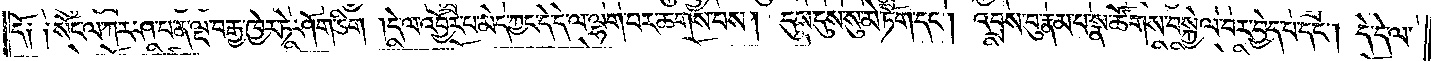དོ༑ ༑སོང་ལ་ཀར་ཤ་པ་ན་ལྔ་བརྒྱ་ཁྱེར་ཏེ་ཤོག་ཅིག །དེ་ལ་འབྱོར་པ་མེད་ཀྱང་དེ་དེ་ལ་ལྷག་པར་ཆགས་པས། དུས་དུས་སུ་མེ་ཏོག་དང༌། འབྲས་བུ་རྣམ་པ་སྣ་ཚོགས་བསྐྱེལ་བར་བྱེད་པ་དང༌། དེ་དེ་ལ་
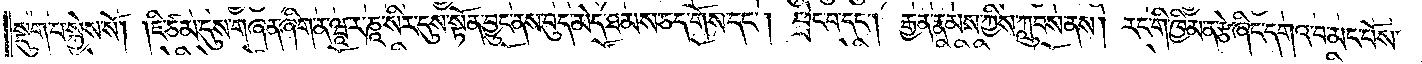སྡུག་པ་སྐྱེས་སོ། །ཇི་ཙམ་དུས་གཞན་ཞིག་ན་ཝཱ་ར་ཎ་སིར་དུས་སྟོན་བྱུང་ནས་བུད་མེད་ཐམས་ཅད་གོས་དང༌། ཕྲེང་བ་དང༌། རྒྱན་རྣམས་ཀྱིས་ཀླུབས་ནས། རང་གི་ཁྱིམ་ན་རྩེ་ཞིང་དགའ་བ་མང་པོས་
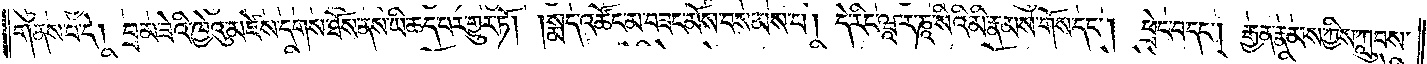གནས་པ་དེ། བྲམ་ཟེའི་ཁྱེའུ་མཛེས་དགས་ཐོས་ནས་ཡི་ཆད་པར་གྱུར་ཏོ། །སྨད་འཚོང་མ་བཟང་མོས་བསམས་པ། དེ་རིང་ཝཱ་ར་ཎཱ་སིའི་མི་རྣམས་གོས་དང༌། ཕྲེང་བ་དང༌། རྒྱན་རྣམས་ཀྱིས་ཀླུབས་
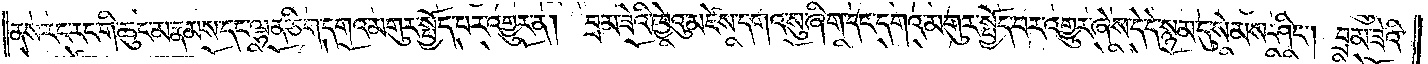ནས་རང་རང་གི་ཆུང་མ་རྣམས་དང་ལྷན་ཅིག་དགའ་མགུར་སྤྱོད་པར་འགྱུར་ན། བྲམ་ཟེའི་ཁྱེའུ་མཛེས་དགའ་སུ་ཞིག་དང་དགའ་མགུར་སྤྱོད་པར་འགྱུར་ཞེས་དེ་དེ་སྙམ་དུ་སེམས་ཤིང༌། བྲམ་ཟེའི་
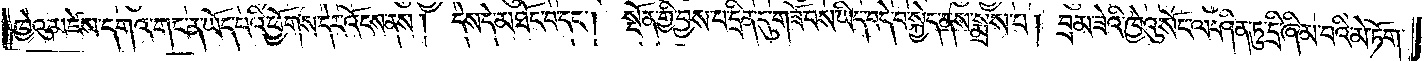ཁྱེའུ་མཛེས་དགའ་གང་ན་ཡོད་པའི་ཕྱོགས་དེར་འོངས་ནས། དེས་དེ་མཐོང་བ་དང༌། སྔོན་གྱི་བྱས་པ་དྲིན་དུ་གཟོ་བས་ཡིད་བདེ་བ་སྐྱེད་ནས་སྨྲས་པ། བྲམ་ཟེའི་ཁྱེའུ་སོང་ལ་ཤིན་ཏུ་དྲི་ཞིམ་པའི་མེ་ཏོག་
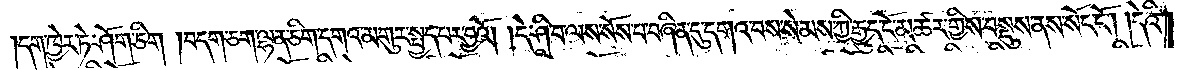དག་ཁྱེར་ཏེ་ཤོག་ཅིག །བདག་ཅག་ལྷན་ཅིག་དགའ་མགུར་སྤྱད་པར་བྱའོ། །དེ་ཤི་བ་ལས་སོས་པ་བཞིན་དུ་དགའ་བས་སེམས་ཀྱི་རྒྱུད་ངོ་མཚར་གྱིས་བསྡུས་ནས་སོང་ངོ༌། །དེའི་
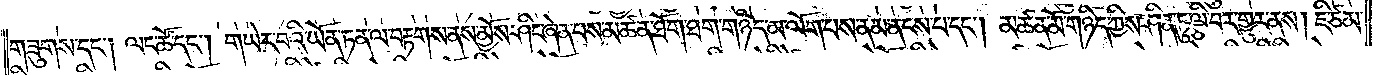གཟུགས་དང༌། ལང་ཚོ་དང༌། གཡེར་བའི་ཡོན་ཏན་ལ་བརྟགས་ནས་མྱོས་ཤིང་ཞེན་པས་མཚན་ཐོག་ཐག་གཉིད་མ་ལོག་པས་ནམ་ནངས་པ་དང༌། མཚན་མོ་གཉིད་ཀྱིས་ཤིན་ཏུ་ལྕི་བར་གྱུར་ནས། ཇི་ཙམ་
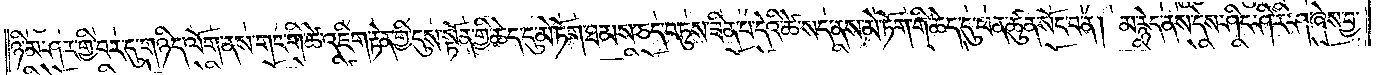ཉི་མ་ཤར་གྱི་བར་དུ་གཉིད་ལོག་ནས་གང་གི་ཚེ་འཇིག་རྟེན་གྱི་དུས་སྟོན་གྱི་ཆེད་དུ་མེ་ཏོག་ཐམས་ཅད་བཏུས་ཟིན་པ་དེའི་ཚེ་སད་ནས་མེ་ཏོག་གི་ཆེད་དུ་ཕན་ཚུན་སོང་བ་ན། མ་རྙེད་ནས་དེས་ཤིང་ཤི་རི་ཤ་ཞེས་བྱ་
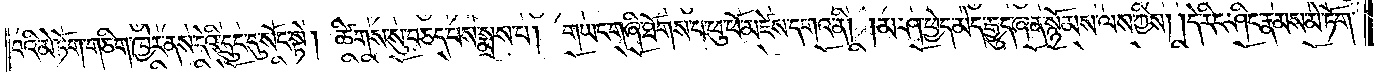བའི་མེ་ཏོག་གཅིག་ཁྱེར་ནས་དེའི་དྲུང་དུ་སོང་སྟེ། ཚིགས་སུ་བཅད་པས་སྨྲས་པ། གཡང་གཞི་ཐོགས་པ་ཕུ་ཕོ་མཛེས་དགའ་ནི། །མ་ཤ་ཕྱེད་མེད་རྒྱུད་ཞན་སྙོམས་ལས་ཀྱིས། །དེ་རིང་ཤིང་རྣམས་མེ་ཏོག་
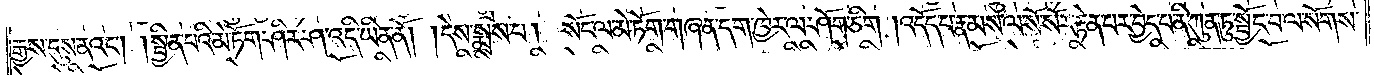རྒྱས་དུས་ནའང༌། །སྦྱིན་པའི་མེ་ཏོག་ཤིར་ཤ་འདི་ཡིན་ནོ། །དེས་སྨྲས་པ། སོང་ལ་མེ་ཏོག་གཞན་དག་ཁྱེར་ལ་ཤོག་ཅིག །འདོད་པ་རྣམས་ལ་སོ་སོར་རྟེན་པར་བྱེད་པ་ནི་ཀུན་ཏུ་སྦྱོང་བ་ལ་སོགས་
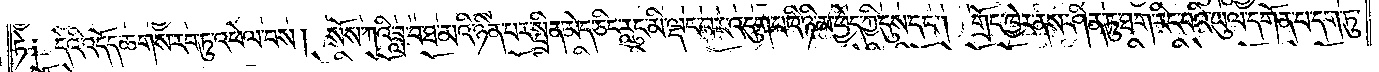ཏེ༑ དེའི་འདོད་ཆགས་རབ་ཏུ་འཕེལ་བས། སོས་ཀའི་ཟླ་བ་ཐ་མའི་ཉིན་པར་སྤྲིན་མེད་ཅིང་རླུང་མི་ལྡང་བར་འདུག་པའི་ཉི་མ་ཕྱེད་ཀྱི་དུས་དང༌། གྲོང་ཁྱེར་ནས་ཤིན་ཏུ་ཐག་རིང་བའི་ཡུལ་དགོན་པ་དག་ཏུ་
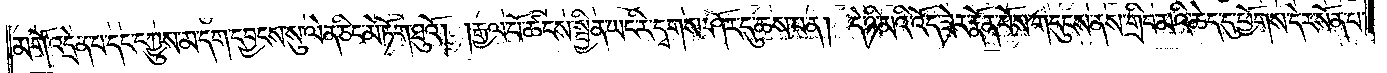མགོ་འདྲེན་པ་དང་དཀྱུས་མ་དག་དབྱངས་སུ་ལེན་ཅིང་མེ་ཏོག་ཐུའོ། །རྒྱལ་པོ་ཚངས་སྦྱིན་ཡང་རི་དྭགས་ཤོར་དུ་ཆས་པ་ན། དེ་ཉི་མའི་འོད་ཟེར་རྣོན་པོས་གདུངས་ནས་གྲིབ་མའི་ཆེད་དུ་ཕྱོགས་དེར་སོན་པ་
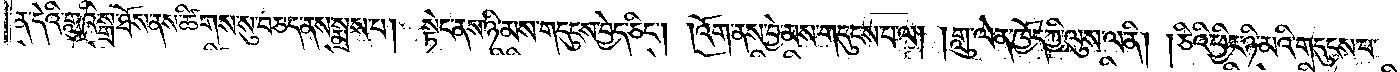ན་དེའི་གླུའི་སྒྲ་ཐོས་ནས་ཚིགས་སུ་བཅད་ནས་སྨྲས་པ། སྟེང་ནས་ཉི་མས་གདུངས་བྱེད་ཅིང༌། །འོག་ནས་བྱེ་མས་གདུངས་པ་ལ། །གླུ་ལེན་ཁྱོད་ཀྱི་ལུས་ལ་ནི། །ཅིའི་ཕྱིར་ཉི་མའི་གདུངས་པ་
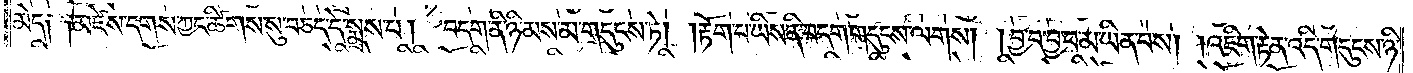མེད༑ ༑མཛེས་དགས་ཀྱང་ཚིགས་སུ་བཅད་དེ་སྨྲས་པ། བདག་ནི་ཉི་མས་མ་གདུངས་ཏེ། །རྟོག་པ་ཡིས་ནི་བདག་གདུངས་ལགས། །བྱ་བ་བྱ་བ་མ་ཡིན་པས། །འཇིག་རྟེན་འདི་གདུངས་ཉི་
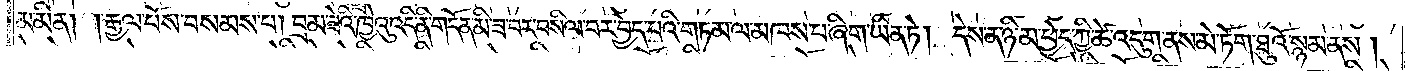མ་མིན། །རྒྱལ་པོས་བསམས་པ། བྲམ་ཟེའི་ཁྱེའུ་འདི་ནི་གདོན་མི་ཟ་བར་བསིལ་བར་བྱེད་པའི་གཏམ་ལ་མཁས་པ་ཞིག་ཡིན་ཏེ། དེས་ན་ཉི་མ་ཕྱེད་ཀྱི་ཚེ་འདུག་ནས་མེ་ཏོག་ཐུའོ་སྙམ་ནས།
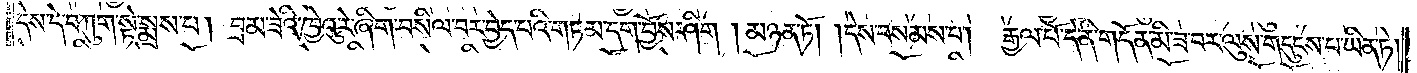དེས་དེ་བཀུག་སྟེ་སྨྲས་པ། བྲམ་ཟེའི་ཁྱེའུ་རེ་ཞིག་བསིལ་བར་བྱེད་པའི་གཏམ་དག་བྱོས་ཤིག །མཉམ་ཏོ། །དེས་བསམས་པ།  རྒྱལ་པོ་དེ་ནི་གདོན་མི་ཟ་བར་ལུས་གདུངས་པ་ཡིན་ཏེ།
